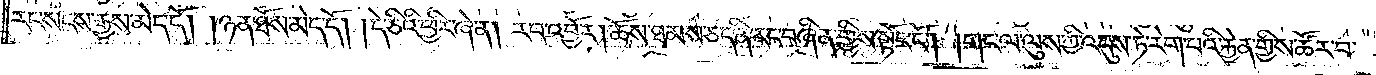རང་སངས་རྒྱས་མེད་དོ། །ཉན་ཐོས་མེད་དོ། །དེ་ཅིའི་ཕྱིར་ཞེ་ན། རབ་འབྱོར། ཆོས་ཐམས་ཅད་ནི་རང་བཞིན་གྱིས་སྟོང་ངོ༌། །གང་ལ་ལུས་ཀྱི་འདུས་ཏེ་རེག་པའི་རྐྱེན་གྱིས་ཚོར་བ་
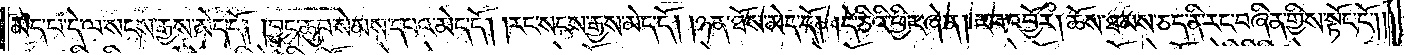མེད་པ་དེ་ལ་སངས་རྒྱས་མེད་དོ། །བྱང་ཆུབ་སེམས་དཔའ་མེད་དོ། །རང་སངས་རྒྱས་མེད་དོ། །ཉན་ཐོས་མེད་དོ། །དེ་ཅིའི་ཕྱིར་ཞེ་ན། རབ་འབྱོར། ཆོས་ཐམས་ཅད་ནི་རང་བཞིན་གྱིས་སྟོང་ངོ༌། །
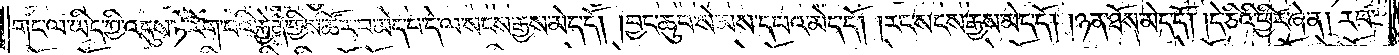གང་ལ་ཡིད་ཀྱི་འདུས་ཏེ་རེག་པའི་རྐྱེན་གྱིས་ཚོར་བ་མེད་པ་དེ་ལ་སངས་རྒྱས་མེད་དོ། །བྱང་ཆུབ་སེམས་དཔའ་མེད་དོ། །རང་སངས་རྒྱས་མེད་དོ། །ཉན་ཐོས་མེད་དོ། །དེ་ཅིའི་ཕྱིར་ཞེ་ན། རབ་
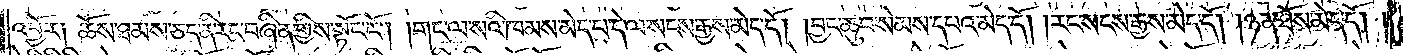འབྱོར༑ ཆོས་ཐམས་ཅད་ནི་རང་བཞིན་གྱིས་སྟོང་ངོ༌། །གང་ལ་སའི་ཁམས་མེད་པ་དེ་ལ་སངས་རྒྱས་མེད་དོ། །བྱང་ཆུབ་སེམས་དཔའ་མེད་དོ། །རང་སངས་རྒྱས་མེད་དོ། །ཉན་ཐོས་མེད་དོ། །
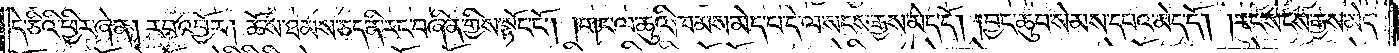དེ་ཅིའི་ཕྱིར་ཞེ་ན། རབ་འབྱོར། ཆོས་ཐམས་ཅད་ནི་རང་བཞིན་གྱིས་སྟོང་ངོ༌། །གང་ལ་ཆུའི་ཁམས་མེད་པ་དེ་ལ་སངས་རྒྱས་མེད་དོ། །བྱང་ཆུབ་སེམས་དཔའ་མེད་དོ། །རང་སངས་རྒྱས་མེད་
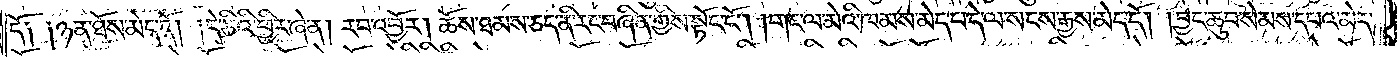དོ༑ ༑ཉན་ཐོས་མེད་དོ། །དེ་ཅིའི་ཕྱིར་ཞེ་ན། རབ་འབྱོར། ཆོས་ཐམས་ཅད་ནི་རང་བཞིན་གྱིས་སྟོང་ངོ༌། །གང་ལ་མེའི་ཁམས་མེད་པ་དེ་ལ་སངས་རྒྱས་མེད་དོ། །བྱང་ཆུབ་སེམས་དཔའ་མེད་
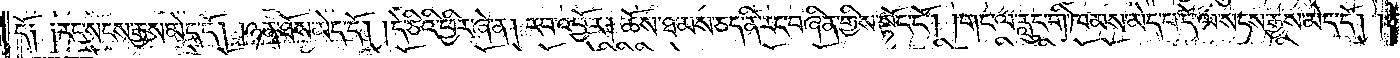དོ༑ ༑རང་སངས་རྒྱས་མེད་དོ། །ཉན་ཐོས་མེད་དོ། །དེ་ཅིའི་ཕྱིར་ཞེ་ན། རབ་འབྱོར། ཆོས་ཐམས་ཅད་ནི་རང་བཞིན་གྱིས་སྟོང་ངོ༌། །གང་ལ་རླུང་གི་ཁམས་མེད་པ་དེ་ལ་སངས་རྒྱས་མེད་དོ། །
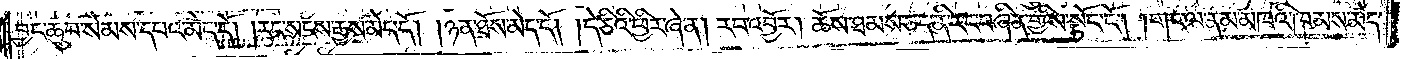བྱང་ཆུབ་སེམས་དཔའ་མེད་དོ། །རང་སངས་རྒྱས་མེད་དོ། །ཉན་ཐོས་མེད་དོ། །དེ་ཅིའི་ཕྱིར་ཞེ་ན། རབ་འབྱོར། ཆོས་ཐམས་ཅད་ནི་རང་བཞིན་གྱིས་སྟོང་ངོ༌། །གང་ལ་ནམ་མཁའི་ཁམས་མེད་
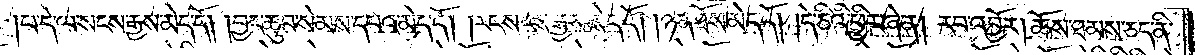པ་དེ་ལ་སངས་རྒྱས་མེད་དོ། །བྱང་ཆུབ་སེམས་དཔའ་མེད་དོ། །རང་སངས་རྒྱས་མེད་དོ། །ཉན་ཐོས་མེད་དོ། །དེ་ཅིའི་ཕྱིར་ཞེ་ན། རབ་འབྱོར། ཆོས་ཐམས་ཅད་ནི་
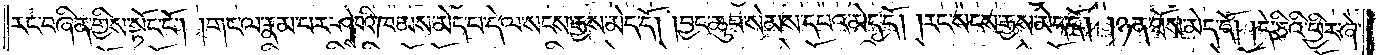རང་བཞིན་གྱིས་སྟོང་ངོ༌། །གང་ལ་རྣམ་པར་ཤེས་པའི་ཁམས་མེད་པ་དེ་ལ་སངས་རྒྱས་མེད་དོ། །བྱང་ཆུབ་སེམས་དཔའ་མེད་དོ། །རང་སངས་རྒྱས་མེད་དོ། །ཉན་ཐོས་མེད་དོ། །དེ་ཅིའི་ཕྱིར་ཞེ་
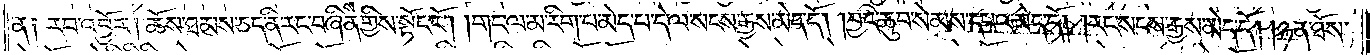ན༑ རབ་འབྱོར། ཆོས་ཐམས་ཅད་ནི་རང་བཞིན་གྱིས་སྟོང་ངོ༌། །གང་ལ་མ་རིག་པ་མེད་པ་དེ་ལ་སངས་རྒྱས་མེད་དོ། །བྱང་ཆུབ་སེམས་དཔའ་མེད་དོ། །རང་སངས་རྒྱས་མེད་དོ། །ཉན་ཐོས་
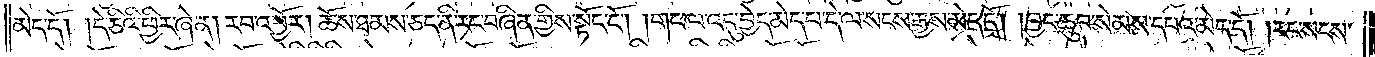མེད་དོ། །དེ་ཅིའི་ཕྱིར་ཞེ་ན། རབ་འབྱོར། ཆོས་ཐམས་ཅད་ནི་རང་བཞིན་གྱིས་སྟོང་ངོ༌། །གང་ལ་འདུ་བྱེད་མེད་པ་དེ་ལ་སངས་རྒྱས་མེད་དོ། །བྱང་ཆུབ་སེམས་དཔའ་མེད་དོ། །རང་སངས་
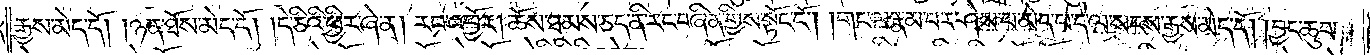རྒྱས་མེད་དོ། །ཉན་ཐོས་མེད་དོ། །དེ་ཅིའི་ཕྱིར་ཞེ་ན། རབ་འབྱོར། ཆོས་ཐམས་ཅད་ནི་རང་བཞིན་གྱིས་སྟོང་ངོ༌། །གང་ལ་རྣམ་པར་ཤེས་པ་མེད་པ་དེ་ལ་སངས་རྒྱས་མེད་དོ། །བྱང་ཆུབ་
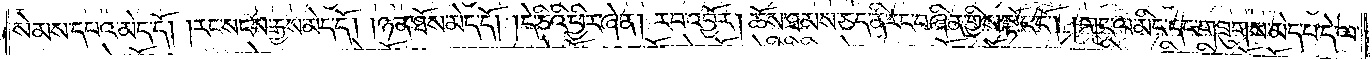སེམས་དཔའ་མེད་དོ། །རང་སངས་རྒྱས་མེད་དོ། །ཉན་ཐོས་མེད་དོ། །དེ་ཅིའི་ཕྱིར་ཞེ་ན། རབ་འབྱོར། ཆོས་ཐམས་ཅད་ནི་རང་བཞིན་གྱིས་སྟོང་ངོ༌། །གང་ལ་མིང་དང་གཟུགས་མེད་པ་དེ་ལ་
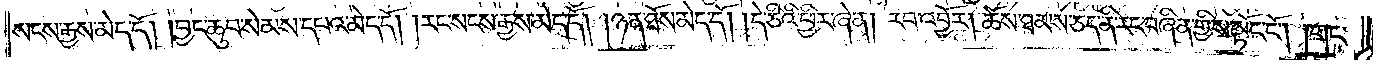སངས་རྒྱས་མེད་དོ། །བྱང་ཆུབ་སེམས་དཔའ་མེད་དོ། །རང་སངས་རྒྱས་མེད་དོ། །ཉན་ཐོས་མེད་དོ། །དེ་ཅིའི་ཕྱིར་ཞེ་ན། རབ་འབྱོར། ཆོས་ཐམས་ཅད་ནི་རང་བཞིན་གྱིས་སྟོང་ངོ༌། །གང་
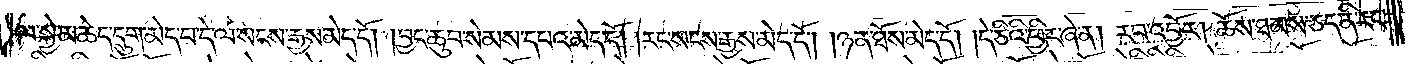ལ་སྐྱེ་མཆེད་དྲུག་མེད་པ་དེ་ལ་སངས་རྒྱས་མེད་དོ། །བྱང་ཆུབ་སེམས་དཔའ་མེད་དོ། །རང་སངས་རྒྱས་མེད་དོ། །ཉན་ཐོས་མེད་དོ། །དེ་ཅིའི་ཕྱིར་ཞེ་ན། རབ་འབྱོར། ཆོས་ཐམས་ཅད་ནི་རང་
